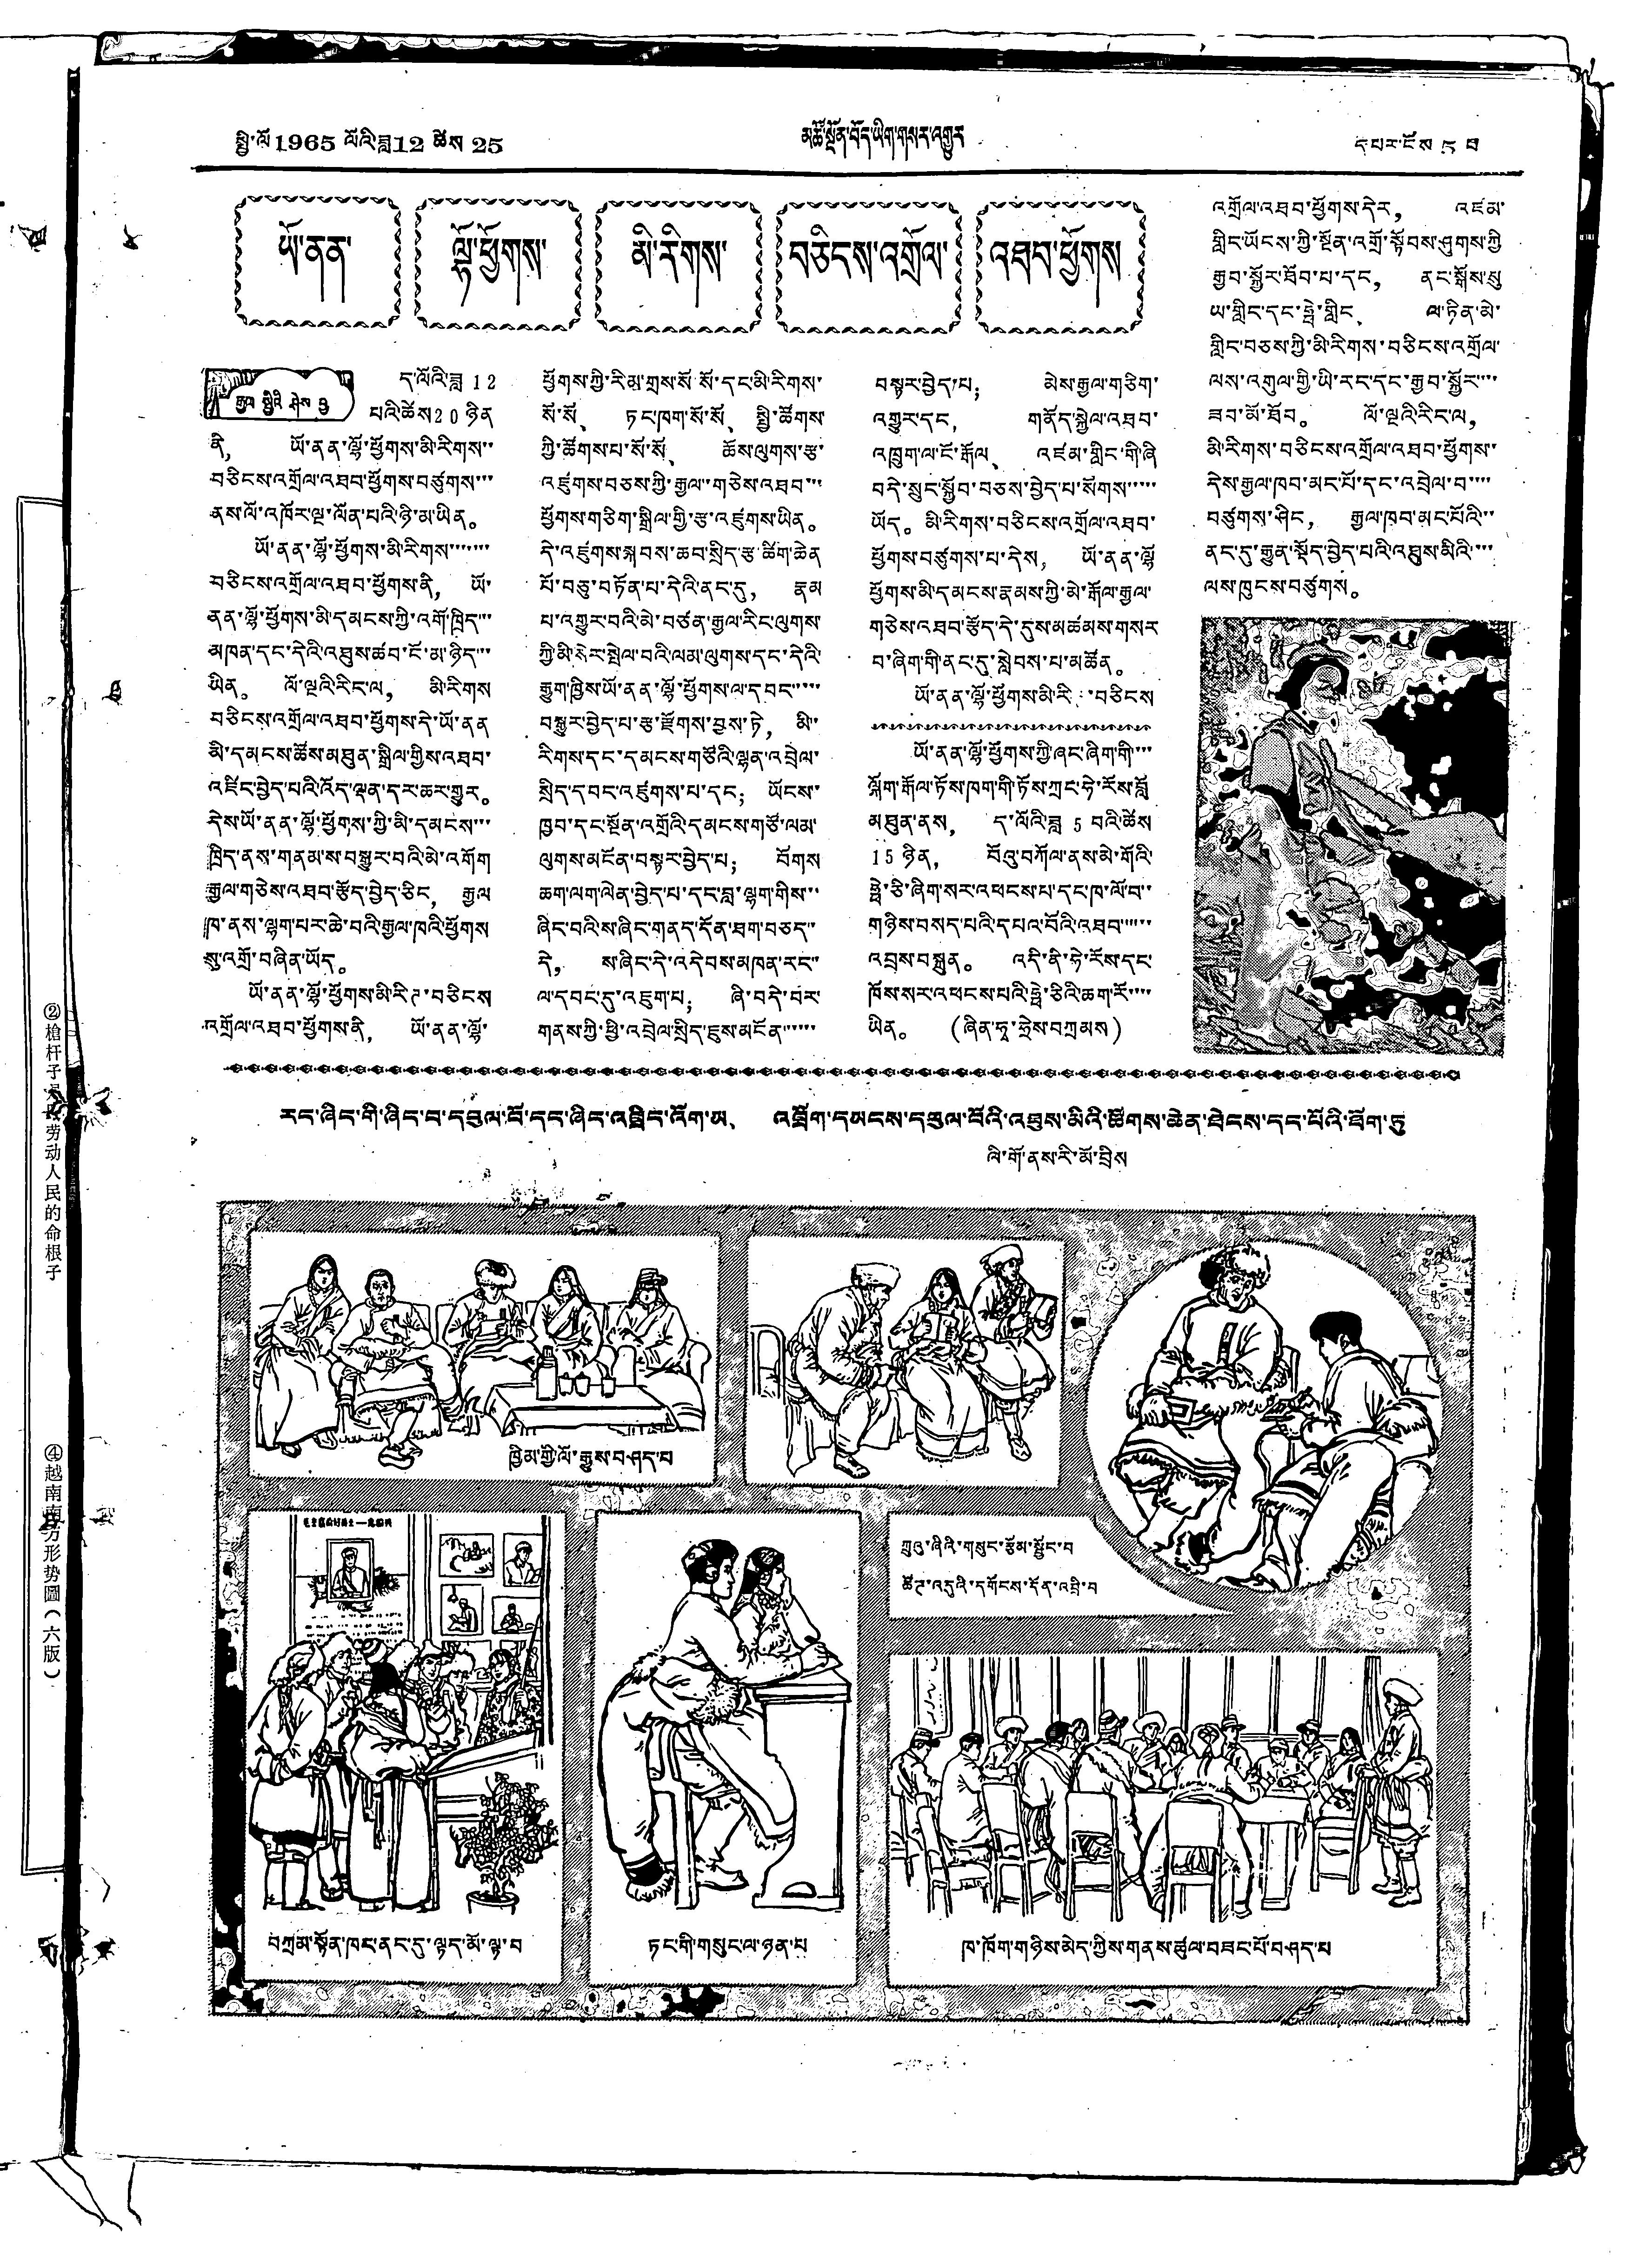སྤྱི་ལོ 1965 ལོའི་ཟླ 12 ཚེས 25 མཚོ་སྔོན་བོད་ཡིག་གསར་འགྱུར དཔར་ངོས 5 བ
②槍杆子是我劳动人民的命根子
④越南南方形势圖（六版）
ཡོ་ནན་ ལྷོ་ཕྱོགས་ མི་རིགས་ བཅིངས་འགྲོལ་ འཐབ་ཕྱོགས
རྒྱལ སྤྱིའི ཤེས བྱ
ད་ལོའི་ཟླ 12
པའི་ཚེས 20 ཉིན
ནི， ཡོ་ནན་ལྷོ་ཕྱོགས་མི་རིགས་་
བཅིངས་འགྲོལ་འཐབ་ཕྱོགས་བཙུགས་་་
ནས་ལོ་འཁོར་ལྔ་ལོན་པའི་ཉི་མ་ཡིན。
ཡོ་ནན་ལྷོ་ཕྱོགས་མི་རིགས་་་་་་་
བཅིངས་འགྲོལ་འཐབ་ཕྱོགས་ནི， ཡོ་
ནན་ལྷོ་ཕྱོགས་མི་དམངས་ཀྱི་འགོ་ཁྲིད་་་
མཁན་དང་དེའི་འཐུས་ཚབ་ངོ་མ་ཉིད་་་
ཡིན。 ལོ་ལྔའི་རིང་ལ， མི་རིགས་
བཅིངས་འགྲོལ་འཐབ་ཕྱོགས་དེ་ཡོ་ནན
མི་དམངས་ཚོས་མཐུན་སྒྲིལ་གྱིས་འཐབ་
འཛིང་བྱེད་པའི་འོད་ལྡན་དར་ཆར་གྱུར。
དེས་ཡོ་ནན་ལྷོ་ཕྱོགས་ཀྱི་མི་དམངས་་་
ཁྲིད་ནས་གནམ་ས་བསྒྱུར་བའི་མེ་འགོག
རྒྱལ་གཅེས་འཐབ་རྩོད་བྱེད་ཅིང， རྒྱལ
ཁ་ནས་ལྷག་པར་ཆེ་བའི་རྒྱལ་ཁའི་ཕྱོགས་
སུ་འགྲོ་བཞིན་ཡོད。
ཡོ་ནན་ལྷོ་ཕྱོགས་མི་རིཊ་བཅིངས
འགྲོལ་འཐབ་ཕྱོགས་ནི， ཡོ་ནན་ལྷོ་
ཕྱོགས་ཀྱི་རི་མ་གྲས་སོ་སོ་དང་མི་རིགས་
སོ་སོ、 ཏང་ཁག་སོ་སོ、 སྤྱི་ཚོགས་
ཀྱི་ཚོགས་པ་སོ་སོ、 ཆོས་ལུགས་རྩ་
འཛུགས་བཅས་ཀྱི་རྒྱལ་གཅེས་འཐབ་་་
ཕྱོགས་གཅིག་སྒྲིལ་གྱི་རྩ་འཛུགས་ཡིན。
དེ་འཛུགས་སྐབས་ཆབ་སྲིད་རྩ་ཚིག་ཆེན
པོ་བཅུ་བཏོན་པ་དེའི་ནང་དུ， རྣམ
པ་འགྱུར་བའི་མེ་བཙན་རྒྱལ་རིང་ལུགས་
ཀྱི་མི་སེར་སྤེལ་བའི་ལམ་ལུགས་དང་དེའི་
རྒྱུག་ཁྱིས་ཡོ་ནན་ལྷོ་ཕྱོགས་ལ་དབང་་་་་
བསྒྱུར་བྱེད་པ་རྩ་རྫོགས་བྱས་ཏེ， མི་
རིགས་དང་དམངས་གཙོའི་ལྷན་འབྲེལ་
སྲིད་དབང་འཛུགས་པ་དང； ཡོངས་
ཁྱབ་དང་སྔོན་འགྲོའི་དམངས་གཙོ་ལམ་
ལུགས་མངོན་བསྟར་བྱེད་པ； བོགས་
ཆག་ལག་ལེན་བྱེད་པ་དང་བླ་ལྷག་གིས་་
ཞིང་བའི་ས་ཞིང་གནད་དོན་ཐག་བཅད་་
དེ， ས་ཞིང་དེ་འདེབས་མཁན་རང་་
ལ་དབང་དུ་འཇུག་པ； ཞི་བདེ་བར་
གནས་ཀྱི་ཕྱི་འབྲེལ་སྲིད་ཇུས་མངོན་་་་་་
བསྟར་བྱེད་པ； མེས་རྒྱལ་གཅིག་
འགྱུར་དང， གནོད་སྐྱེལ་འཐབ་
འཁྲུག་ལ་ངོ་རྒོལ、 འཛམ་གླིང་གི་ཞི་
བདེ་སྲུང་སྐྱོབ་བཅས་བྱེད་པ་སོགས་་་་་
ཡོད。 མི་རིགས་བཅིངས་འགྲོལ་འཐབ་
ཕྱོགས་བཙུགས་པ་དེས， ཡོ་ནན་ལྷོ་
ཕྱོགས་མི་དམངས་རྣམས་ཀྱི་མེ་རྒོལ་རྒྱལ་
གཅེས་འཐབ་རྩོད་དེ་དུས་མཚམས་གསར
བ་ཞིག་གི་ནང་དུ་སླེབས་པ་མཚོན。
ཡོ་ནན་ལྷོ་ཕྱོགས་མི་རི： “བཅིངས
འགྲོལ་འཐབ་ཕྱོགས་དེར， འཛམ་
གླིང་ཡོངས་ཀྱི་སྔོན་འགྲོ་སྟོབས་ཤུགས་ཀྱི
རྒྱབ་སྐྱོར་ཐོབ་པ་དང， ནང་སྒོས་སུ་
ཡ་གླིང་དང་ཧྥེ་གླིང， ལ་ཏིན་མེ་
གླིང་བཅས་ཀྱི་མི་རིགས་བཅིངས་འགྲོལ་
ལས་འགུལ་གྱི་ཡི་རང་དང་རྒྱབ་སྐྱོར་་་་
ཟབ་མོ་ཐོབ。 ལོ་ལྔའི་རི་ང་ལ，
མི་རིགས་བཅིངས་འགྲོལ་འཐབ་ཕྱོགས་་
དེས་རྒྱལ་ཁབ་མང་པོ་དང་འབྲེལ་བ་་་་
བཙུགས་ཤིང， རྒྱལ་ཁབ་མང་པོའི་་་
ནང་དུ་རྒྱུན་སྡོད་བྱེད་པའི་འཐུས་མིའི་་་་
ལས་ཁུངས་བཙུགས。
ཡོ་ནན་ལྷོ་ཕྱོགས་ཀྱི་ཞང་ཞིག་གི་་་་
ལྐོག་རྒོལ་ཏོས་ཁག་གི་ཏོས་ཀྲུང་ཧེ་རོས་བློ
མཐུན་ནས， ད་ལོའི་ཟླ 5 བའི་ཚེས
15 ཉིན， བོའུ་བཀོལ་ནས་མེ་གོའི་
ཧྥེ་ཅི་ཞིག་སར་འཕངས་པ་དང་ཁ་ལོ་བ་་
གཉིས་བསད་པའི་དཔའ་བོའི་འཐབ་་་་་་
འབྲས་བསྐྲུན。 འདི་ནི་ཧེ་རོས་དང་
ཁོས་སར་འཕངས་པའི་ཧྲེ་ཅིའི་ཆག་རོ་་་་
ཡིན。
(ཞིན་ཧྭ་ཧྲེས་བཀྲམས)
རད་ཞིང་གི་ཞིང་བ་དབུལ་བོ་དང་ཞིང་འཁྲིད་འོག་མ、 འབྲོག་དམངས་དབུལ་བོའི་འཐུས་མིའི་ཚོགས་ཆེན་ཐེངས་དང་པོའི་ཐོག་ཏུ
ལི་གོ་ནས་རི་མོ་བྲིས།
ཁྱིམ་གྱི་ལོ་རྒྱུས་བཤད་པ
ཀྲུའུ་ཞིའི་གསུང་རྩོམ་སྦྱོང་བ
ཚོཊ་འདུའི་དགོངས་དོན་འབྲི་བ
བཀྲམ་སྟོན་ཁར་ནང་དུ་ལྟད་མོ་ལྟ་བ
ཏང་གི་གསུང་ལ་ཉན་པ
ཁ་ཁོག་གཉིས་མེད་ཀྱིས་གནས་ཚུལ་བཟང་པོ་བཤད་པ
